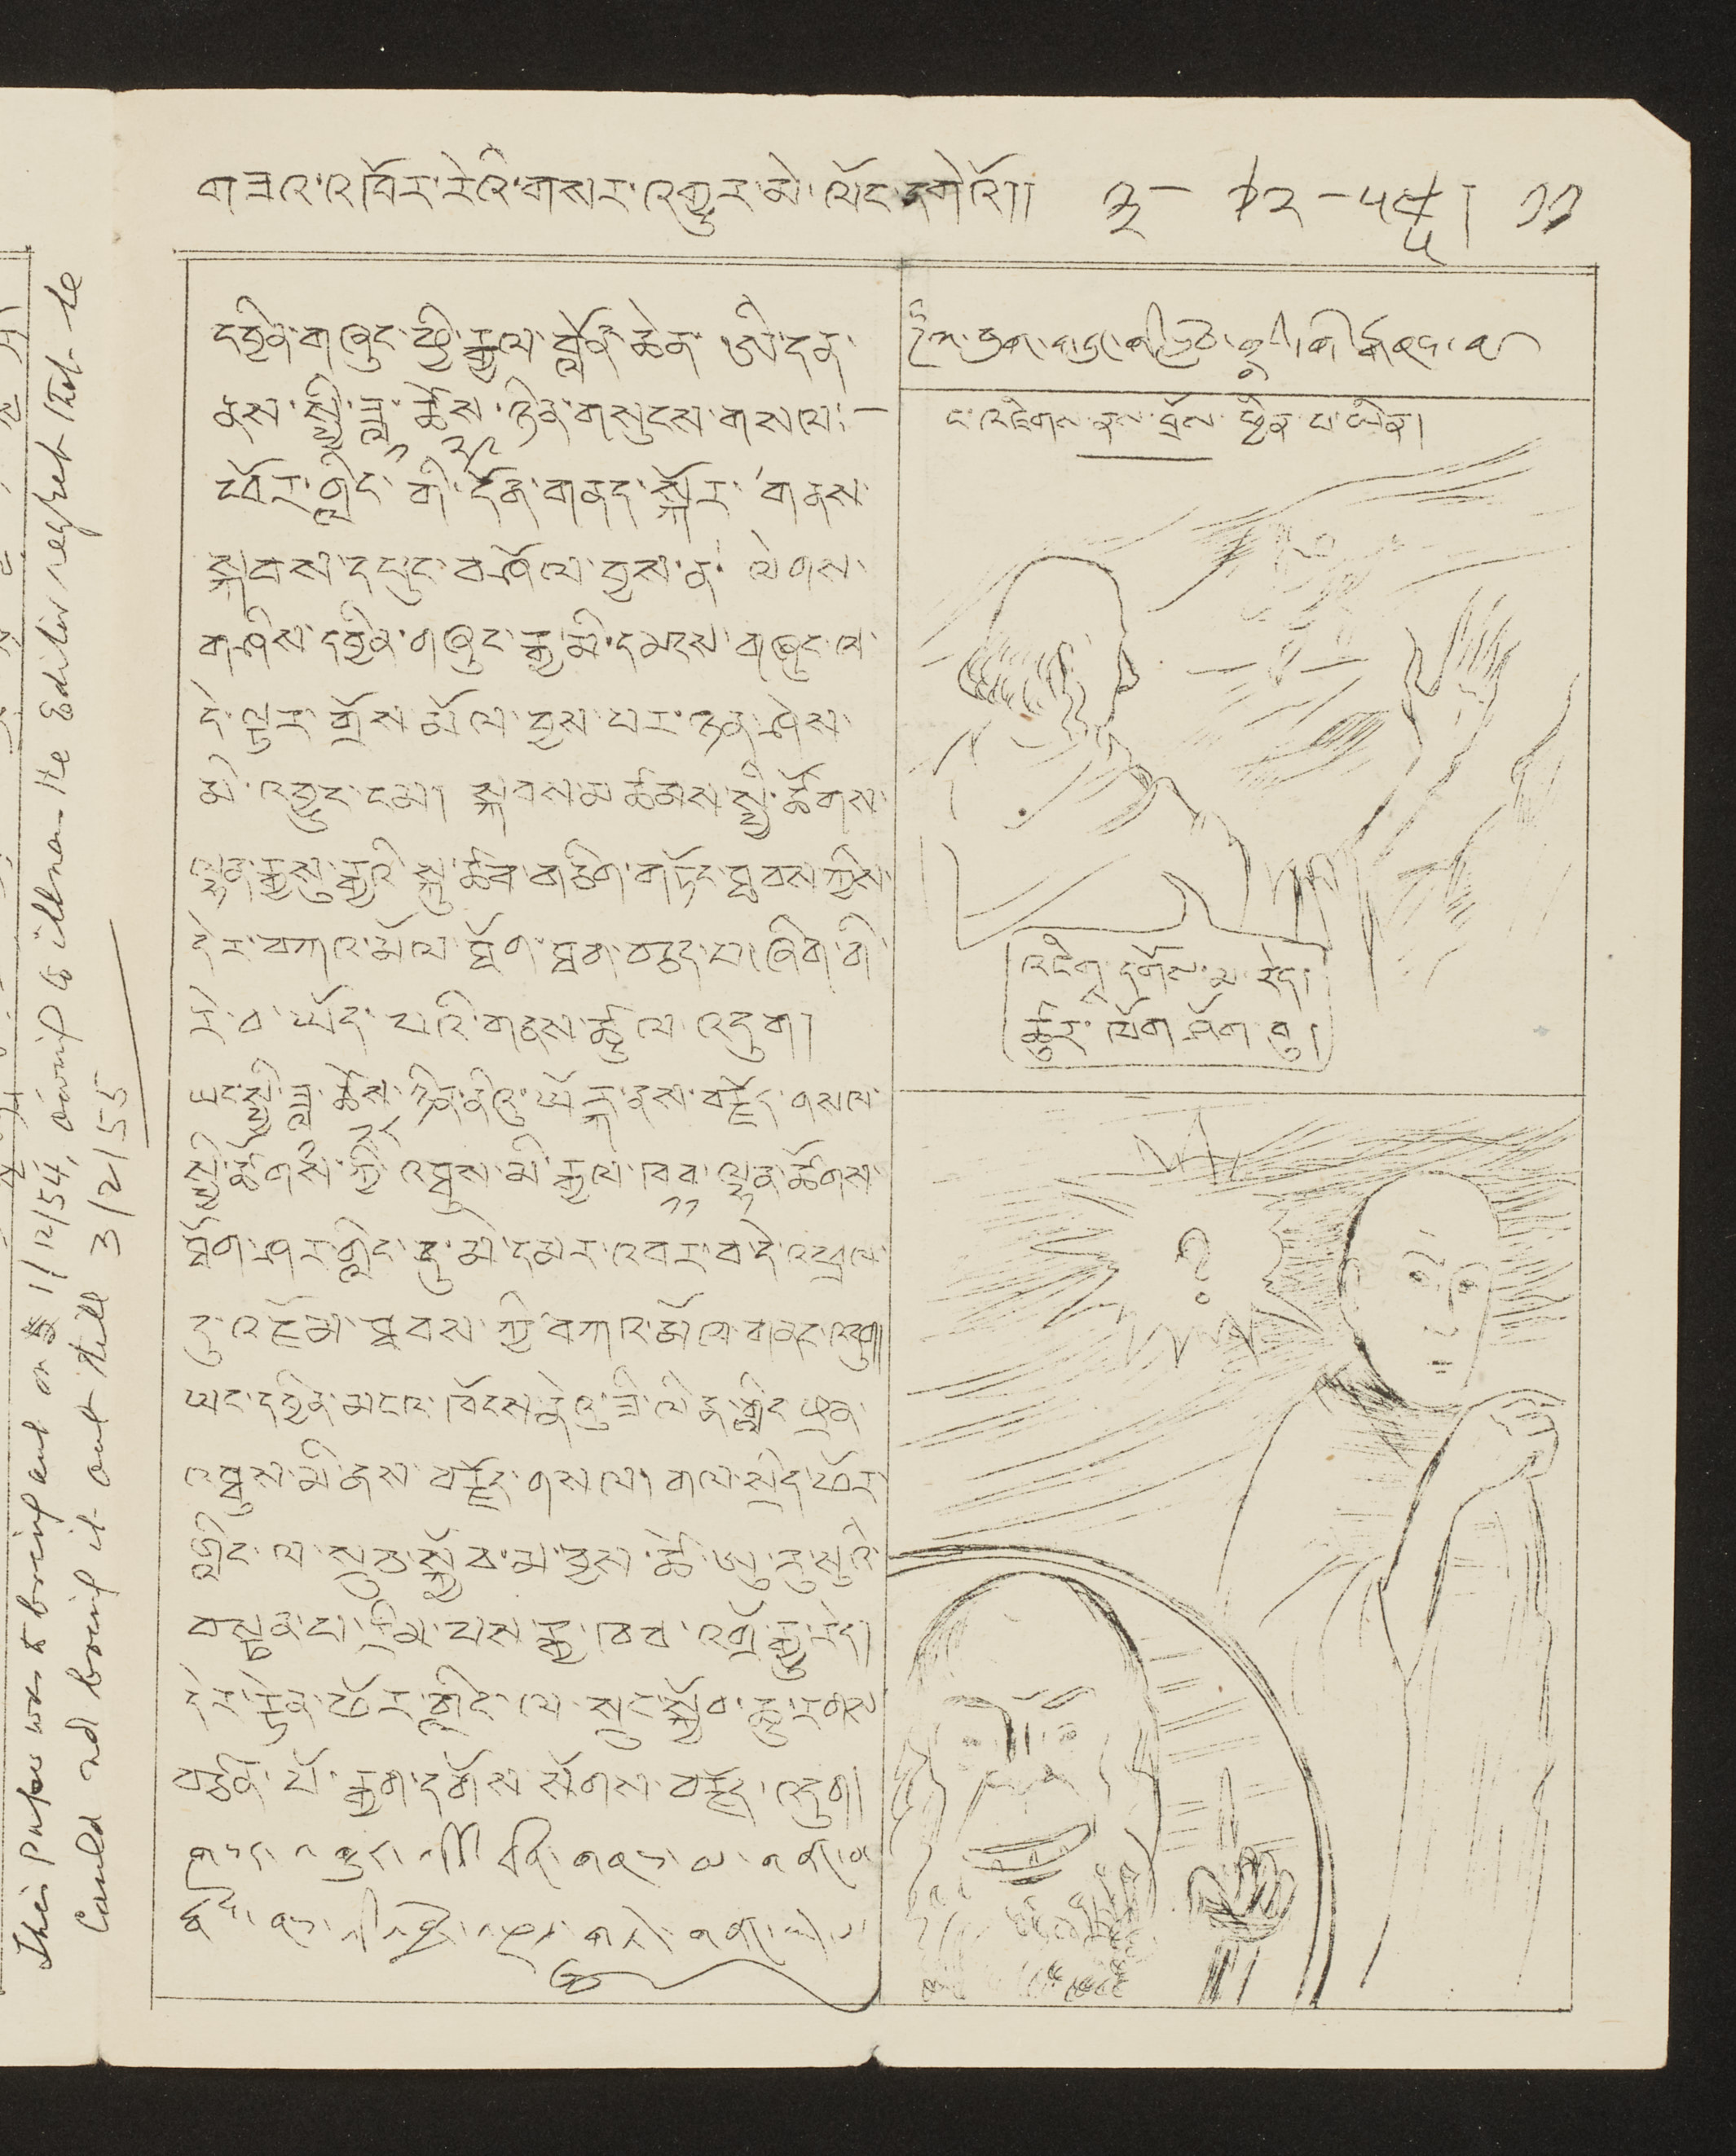གཟའ་འཁོར་རེའི་གསར་འགྱུར་མེ་ལོང་དགེའོ།། ༣-༡༢-༥༤
༥
། ༡༡
དབྱིན་གཞུང་ཕྱི་རྒྱལ་བློན་ཆེན་ཨི་དན་
ནས་སྤྱི་ཟླ་
༡
ཚེས་
༢༩
ཉིན་གསུངས་གསལ:—
ཕོར་གླིང་གི་དོན་གནད་སྐོར་གནས་
སྐབས་དཔུང་བཤོལ་བྱས་ན་ལེགས་
གཤིས་དབྱིན་གཞུང་རྒྱ་མི་དམངས་གཞུང་ལ་
དེ་ལྟར་གྲོས་མོལ་བྱས་པའི་ཉན་ཤེས་
མི་འགྱུར་ངམ། སྐབས་མཚམས་སྤྱི་ཚོགས་
ལྷན་རྒྱསུ་རྒྱའི་སྐུ་ཚབ་གཅིག་གཏོང་ཐབས་ཀྱིས་
དེར་བཀའ་མོལ་ཐོག་ཐག་བཅད་བ་ཞིག་གི་
རེ་བ་ཡོད་པའི་གནས་ཚུལ་འདུག།།
ཡང་སྤྱི་ཟླ་
༡
ཚེས་
༢༨
ཉིན་ནིའུ་ཡོརྐ་ནས་བརྗོད་གསལ་
སྤྱི་ཚོགས་ཀྱི་འཐུས་མི་རྒྱལ་ཁབ་
༡༡
ལྷན་མཚོགས་
ཐོག་ཤར་གླིང་དུ་མི་དམར་འབར་བ་དེ་འཕྲལ་
དུ་འཇོམ་ཐབས་ཀྱི་བཀའ་མོལ་གནས་འདུག།།
ཡང་དབྱིན་མངའ་ཁོངས་ནེའུ་ཟི་ལིན་གླིང་ཕྲན་
འཐུས་མི་ནས་བརྗོད་གསལ་སྲིད་ཕོར་
གླིང་ལ་སྲུབ་སྐྱོབ་མ་བྱས་ཚེ་ཨུ་རུ་སུའི་
བསྟན་པ་རིམ་པས་རྒྱ་ཁབ་འགྲོ་རྒྱུ་རེད།
དེར་རྟེན་ཕོར་གླིང་ལ་སྲུང་སྐྱོབ་ཆུ་རགས་
བཙན་པོ་རྒྱག་དགོས་སོགས་བརྗོད་འདུག།།
གསར་འགྱུར་འདིའི་རིན་གནས་མ་གནང་བ་
རྣམས་ནས་འདི་འབྱོར་འཕྲལ་གཏོད་གནང་ཡོད་པ་
ཞུ།
༈ཀ་སྤུག་གཞུང་གི་སློབ་གྲའི་དགེ་རྒན་ནས་
ང་འཇིགས་ནས་བྲོས་ཕྱིན་པ་ཡིན།
འཇིགྶ་དགོས་མ་རེད།
ཚུར་ལོག ཐོག་བུ།
This paper was to bring and on 1/12/54, owning to illnan the editor reghet that be
could  bring it out till 3/2/55
